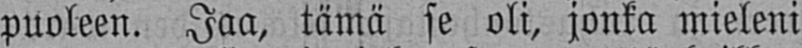puoleen. Jaa, tämä se oli, jonka mieleni
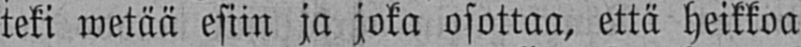teki wetää esiin ja joka osottaa, että heikkoa
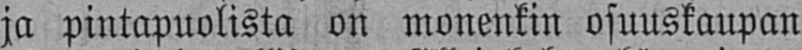ja pintapuolista on monenkin osuuskaupan
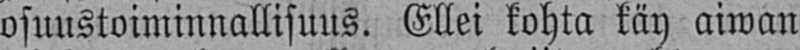osuustoiminnallisuus. Ellei kohta käy aiwan
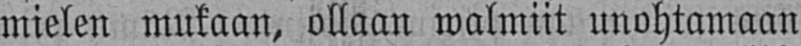mielen mukaan, ollaan walmiit unohtamaan
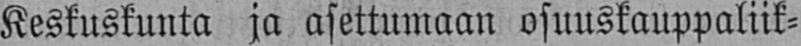Keskuskunta ja asettumaan osuuskauppaliik-
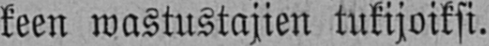keen wastustajien tukijoiksi.
